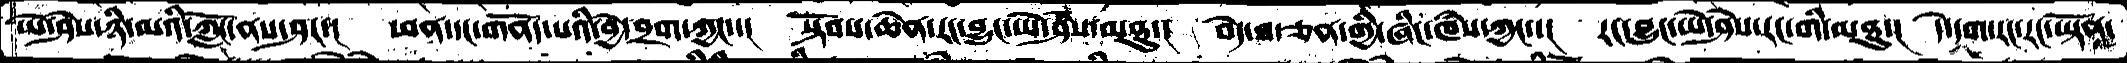ཡེ་ཤེས་ཉི་མའི་ཀློང་ནས་ཤར་།  ཕན་དང་གནོད་པའི་བྱེ་བྲག་ཀྱང་་།  སྟོབས་ཆེན་རང་བྱུང་ཡེ་ཤེས་མཐུ་།  བདེ་བ་ཅན་གྱི་ཞིང་ཁཾས་ཀྱང་་།  རང་བྱུང་ཡེ་ཤེས་རང་གི་མཐུ་།  དེ་དག་རང་རང་ཡྟོན་
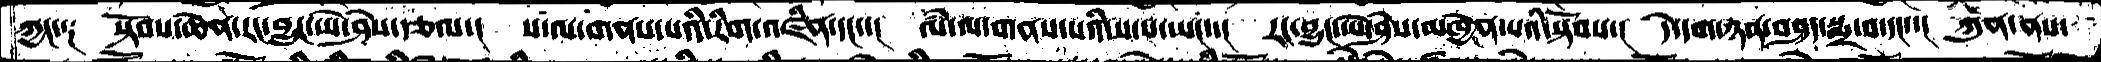ཀྱང་༑  སྟོབས་ཆེན་རང་བྱུང་ཡེ་ཤེས་རྩལ་།  ས་ལ་གནས་པའི་རིག་འཛིན་དང་་།  ལཾ་ལ་གནས་པའི་ས་པ་ཡང་་།  རང་བྱུང་ཡེ་ཤེས་མཁྱེན་པའི་སྟོབས་།  དེ་དག་ཉན་བཤད་སྨྲ་བ་དང་།  ཀུན་ནས་
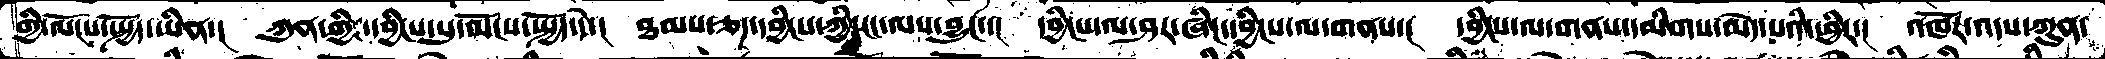གྱི་ལོངས་སྤྱོད་ཡིན་།  ཀུན་གྱི་དབྱིངས་སུ་ལོངས་སྤྱོད་དེ་།  ཐམས་ཅད་དབྱིངས་ཀྱི་ངང་ལས་བྱུང་་།  དབྱིངས་ལ་ཤར་ཞིང་དབྱིངས་ལ་གནས་།  དབྱིངས་ལ་གནས་དམིགས་མེད་པའི་ཕྱིར་།  འཁོར་འདས་ཀུན་
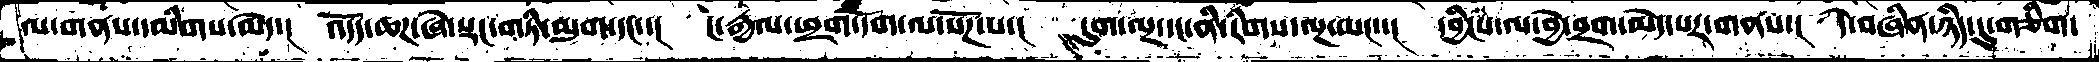ལ་གནས་དམིགས་མེད་།  འདོད་ཆཌ་ཞེ་སྡང་གཏི་མུག་དང་་།  ང་རྒྱལ་ཕྲག་དོག་ལ་སོཌ་པ་།  དུག་ལྔ་དང་ནི་རིགས་ལྔ་ཡང་་།  དབྱིངས་ལ་བྱེ་བྲག་མེད་པར་གནས་།  དེ་བཞིན་ཉིད་དུ་གཅིག་
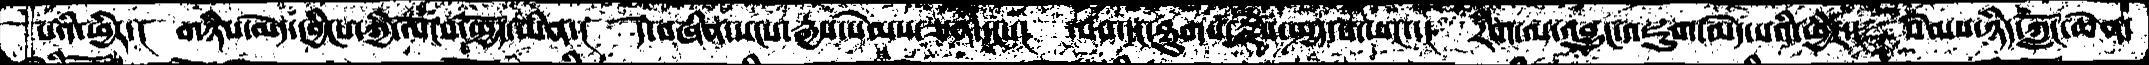པའི་ཕྱིར་། གཉིས་མེད་དབྱིངས་ཀྱི་ལོངས་སྤྱོད་མིན་།  དེ་བཞིན་སངས་རྒྱས་སེམས་ཅན་དང་་།  ལས་དང་ཐུགས་རྗེས་སྤྱད་པ་ཡང་་།  རིག་ལ་འབྱུང་འཇུག་མེད་པའི་ཕྱིར་།  སེམས་ཉིད་ཀློང་ཆེན་
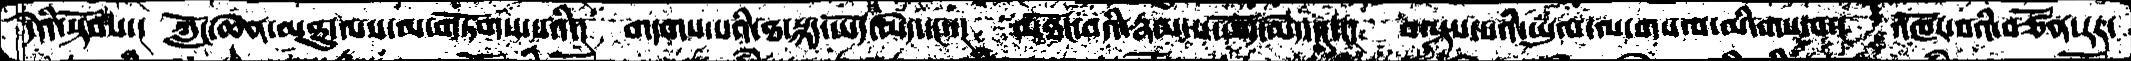དེའི་སྟོབས་།  ཀློང་ཆེན་མཐུ་ལས་མ་གཏོགས་པའི་།  གདགས་པའི་ཐ་སྙད་ཡོད་མེད་དང་་།  མཐོང་བའི་རྣམ་པ་ཡོད་མེད་དང་་།  བལྟས་པའི་ཡུལ་ལ་གསལ་མི་གསལ་།  འཁོར་བའི་བཙོན་རར་
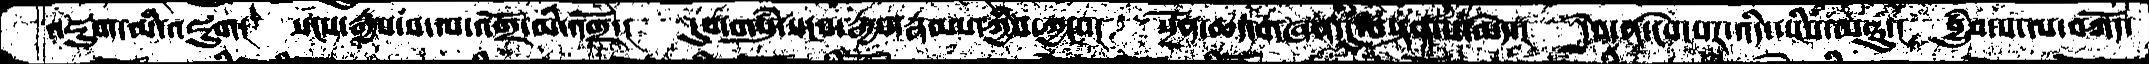འཇུག་མི་འཇུག་།  སངས་རྒྱས་ས་ལ་འགྲོ་མི་འགྲོ་།  དུས་གསུཾ་སངས་རྒྱས་རྣམས་ཀྱིས་ཀྱང་་།  སྔོན་ཆད་གཞན་དུ་བསྟན་པ་མེད་།  དེས་ན་ངེས་པར་འདི་ཡིས་མཐུ་།  བྱུཾབ་ས་ལ་བཀོད་
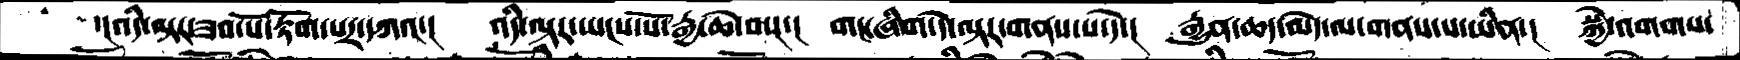་།འདི་ལྟར་ཟབ་པོ་རྟོག་པར་དཀའ་།  འདི་ལྟར་ཡངས་པོ་རྒྱ་ཆེ་བས་།  གང་ཞིག་དེ་ལྟར་གནས་པ་དེ་།  རྒྱུན་ཆད་མེད་ལ་གནས་པ་ཡིན་།  སྐྱེ་འགགས་
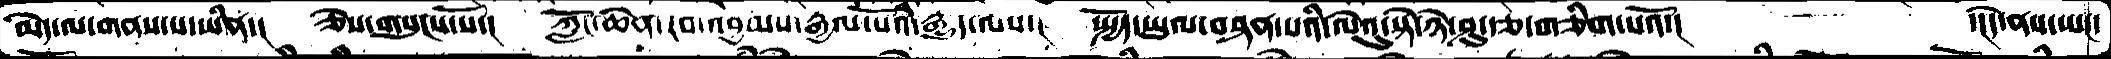མེད་ལ་གནས་པ་ཡིན་།  ཅེས་གསུངས་སོ་།  ཀློང་ཆེན་རབ་འབྱམས་རྒྱལ་པོའི་རྒྱུད་ལས་།  སྤྱོད་ཡུལ་བསྟན་པའི་ལེའུ་སྟེ་ཉེ་ཤུ་རྩ་གཅིག་པའོ་།      ་།དེ་ནས་ཡང་
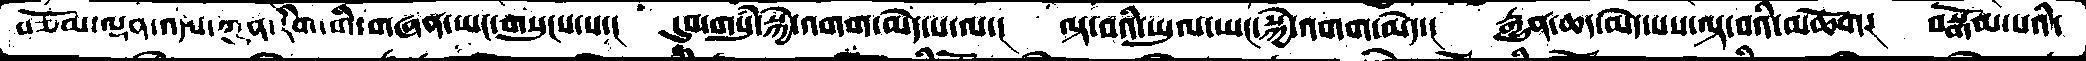བཅོམ་ལྡན་འདས་ཀུན་རིག་གི་གཞན་ཡང་གསུངས་པ་།  དུས་་གསུཾ་སྐྱེ་འགག་མེད་པ་ལ་།  ལྟ་བའི་ཡུལ་ཡང་སྐྱེ་འགག་མེད་།  རྒྱུན་ཆད་མེད་པས་ལྟ་བའི་མཆོག།  བསྒོམ་པའི་
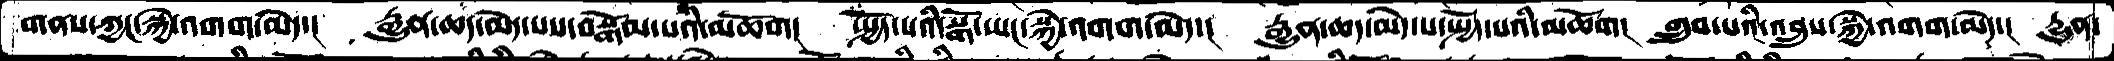གནས་ཀྱང་སྐྱེ་འགག་མེད་།  རྒྱུན་ཆད་མེད་པས་བསྒོམ་པའི་མཆོག།  སྤྱོད་པའི་སྒོ་ཡང་སྐྱེ་འགག་མེད་།  རྒྱུན་ཆད་མེད་པ་སྤྱོད་པའི་མཆོག།  གྲུབ་པའི་འབྲུས་སྐྱེ་འགག་མེད་།  དྱུན་
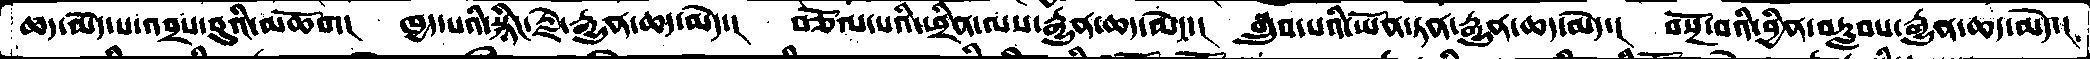ཆད་མེད་པ་འབྲས་བུའི་མཆོག།  ཁྱད་པའི་སྙིང་རྗེ་རྒྱུན་ཆད་མེད་།  བཅོལ་བའི་ཕྲིན་ལས་རྒྱུན་ཆད་མེད་།  སྒྲུབ་པའི་ཡོན་ཏན་རྒྱུན་ཆད་མེད་།  བསྔོ་བའི་བྱིན་བརླབས་རྒྱུན་ཆད་མེད་།
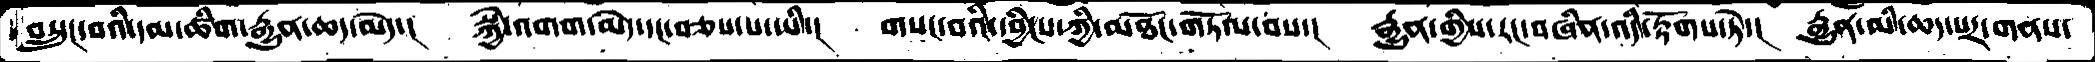བསྲུང་བའི་དམ་ཚིག་རྒྱུན་ཆད་མེད་།  སྐྱེ་འགག་མེད་དང་བཅས་པ་ཡི་།  གསང་བའི་དབྱིངས་ཀྱི་མཐོང་གཏོལ་བས་།  རྒྱུན་གྱིས་རང་བཞིན་འདི་རྟོགས་ཏེ་།  རྒྱུན་མི་ཆད་པར་གནས་
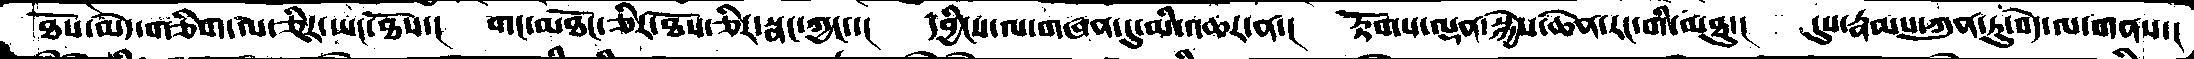ཐོས་མེད་གཅིག་ལ་ཅིར་ཡང་ཐོས་།   གང་མཐོང་ཅིར་ཐོས་ཅིར་སྣང་ཀྱང་་།    དབྱིངས་ལ་གཞན་དུ་མི་འཆར་ན་།   རྟོགས་ལྡན་སྐྱེས་ཆེན་རང་གི་མཐུ་།   དུས་རྣམས་ཀུན་ཏུ་བདེ་ལ་གནས་།
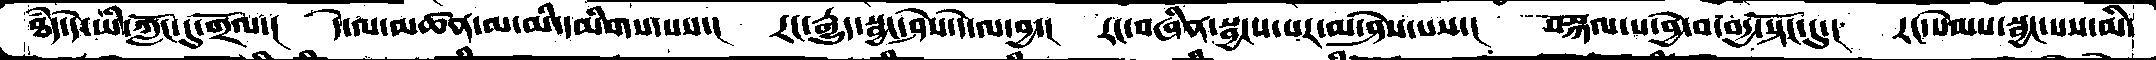ཐཾད་དེ་ཡི་ཀློང་དུ་གྲོལ་།   དེ་ལ་མཚན་མ་མི་དམིགས་པས་།   རང་རྒྱུད་སྦྱང་ཤེས་དེ་ལ་བྱ་།   རང་བཞིན་སྦྱངས་པར་མ་ཤེས་པས་།   བསྐལ་པ་བྱེ་བ་བདྱ་སྟོང་དུ་།    རང་སེམས་སྦྱང་པས་མི་
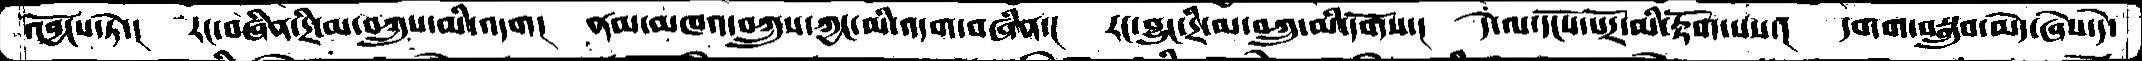འབྱོངས་ཏེ་།  རང་བཞིན་དྲི་མ་བཀྲུས་མི་འདག།   ནམ་མཁའ་བཀྲུས་ཀྱང་མི་འདག་བཞིན་།   རང་བྱུང་དྲི་མ་བཀྲུ་མི་དགོས་།   དེ་ལ་དངོས་པོར་མི་རྟོག་པས་།   དགག་བསྒྲུབ་མེད་ཞེས་དེ་
